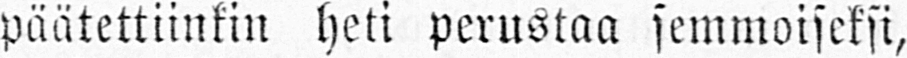päätettiinkin heti perustaa semmoiseksi,
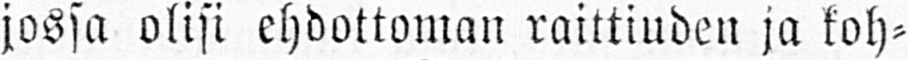jossa olisi ehdottoman raittiuden ja koh-
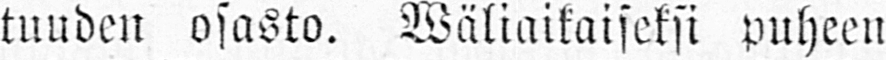tuuden osasto. Wäliaikaiseksi puheen-
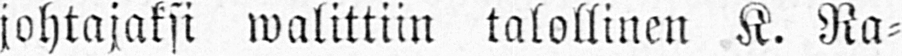johtajaksi walittiin talollinen K. Ra-
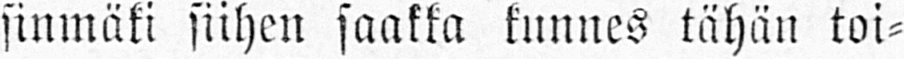sinmäki siihen saakka kunnes tähän toi-
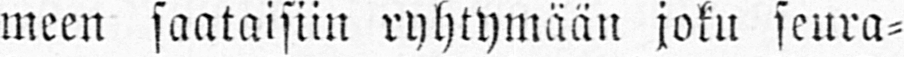meen saataisiin ryhtymään joku seura-
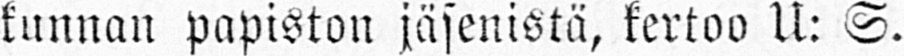kunnan papiston jäsenistä, kertoo U: S.
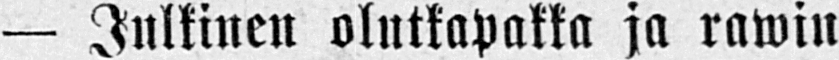— Julkinen olutkapakka ja rawin-
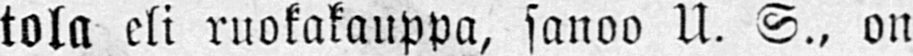tola eli ruokakauppa, sanoo U. S., on
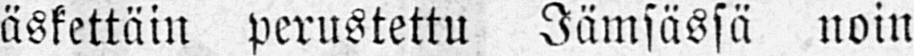äskettäin perustettu Jämsässä noin
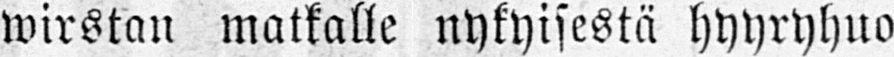wirstan matkalle nykyisestä hyyryhuo-
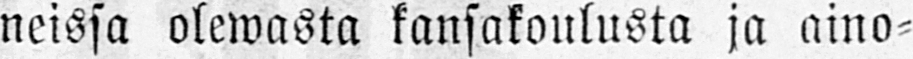neissa olewasta kansakoulusta ja aino-
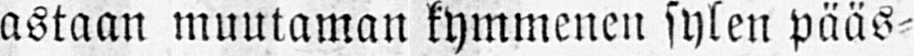astaan muutaman kymmenen sylen pääs-
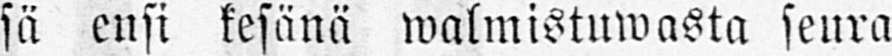sä ensi kesänä walmistuwasta seura-
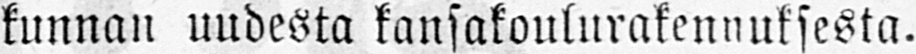kunnan uudesta kansakoulurakennuksesta.
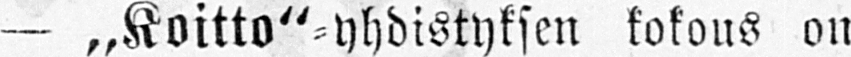— „Koitto"-yhdistyksen kokous on
